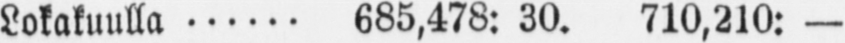Lokakuulla 685,478: 30. 710,210: —
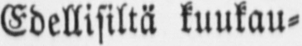Edellisiltä kuukau-
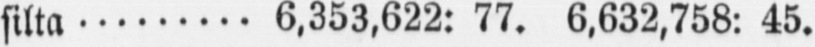silta 6,353,622: 77. 6,632,758: 45.
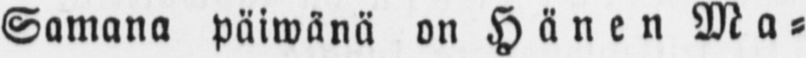Samana päiwänä on Hänen Ma-
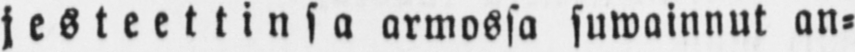jesteettinsa armossa suwainnut an-
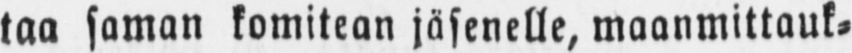taa saman komitean jäsenelle, maanmittauk-
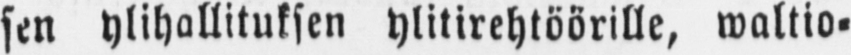sen ylihallituksen ylitirehtöörille, waltio-
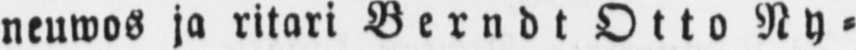neuwos ja ritari Berndt Otto Ny-
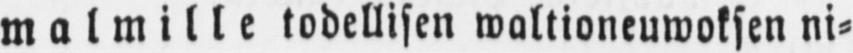malmille todellisen waltioneuwoksen ni-
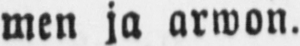men ja arwon.
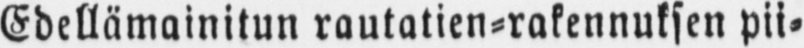Edellämainitun rautatien-rakennuksen pii-
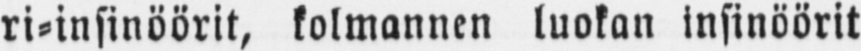ri-insinöörit, kolmannen luokan insinöörit
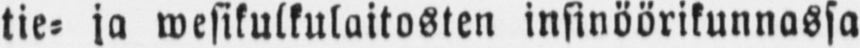tie- ja wesikulkulaitosten insinöörikunnassa
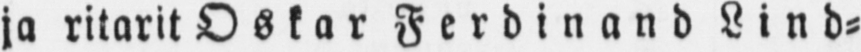ja ritarit Oskar Ferdinand Lind-
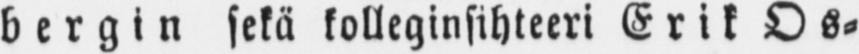bergin sekä kolleginsihteeri Erik Os-
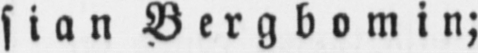sian Bergbomin;
